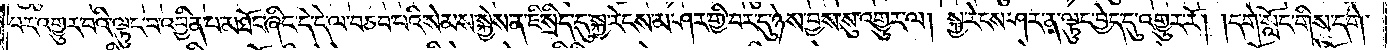པར་འགྱུར་བའི་ལྟུང་བ་འབྱིན་པ་མཐོང་ཞིང་དེ་དེ་ལ་བཅབ་པའི་སེམས་སྐྱེས་ན་ཇི་སྲིད་དུ་སྐྱ་རེངས་མ་ཤར་གྱི་བར་དུ་ཉེས་བྱས་སུ་འགྱུར་ལ། སྐྱ་རེངས་ཤར་ན་ལྟུང་བྱེད་དུ་འགྱུར་རོ། །དགེ་སློང་གིས་དགེ་
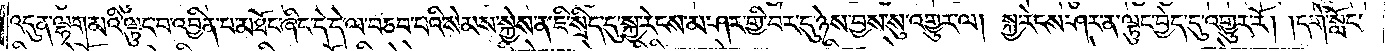འདུན་ལྷག་མའི་ལྟུང་བ་འབྱིན་པ་མཐོང་ཞིང་དེ་དེ་ལ་བཅབ་པའི་སེམས་སྐྱེས་ན་ཇི་སྲིད་དུ་སྐྱ་རེངས་མ་ཤར་གྱི་བར་དུ་ཉེས་བྱས་སུ་འགྱུར་ལ། སྐྱ་རེངས་ཤར་ན་ལྟུང་བྱེད་དུ་འགྱུར་རོ། །དགེ་སློང་
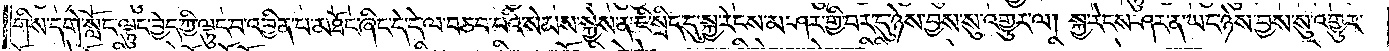གིས་དགེ་སློང་ལྟུང་བྱེད་ཀྱི་ལྟུང་བ་འབྱིན་པ་མཐོང་ཞིང་དེ་དེ་ལ་བཅབ་པའི་སེམས་སྐྱེས་ན་ཇི་སྲིད་དུ་སྐྱ་རེངས་མ་ཤར་གྱི་བར་དུ་ཉེས་བྱས་སུ་འགྱུར་ལ། སྐྱ་རེངས་ཤར་ན་ཡང་ཉེས་བྱས་སུ་འགྱུར་
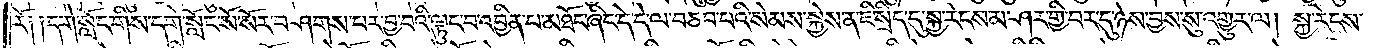རོ༑ ༑དགེ་སློང་གིས་དགེ་སློང་སོ་སོར་བཤགས་པར་བྱ་བའི་ལྟུང་བ་འབྱིན་པ་མཐོང་ཞིང་དེ་དེ་ལ་བཅབ་པའི་སེམས་སྐྱེས་ན་ཇི་སྲིད་དུ་སྐྱ་རེངས་མ་ཤར་གྱི་བར་དུ་ཉེས་བྱས་སུ་འགྱུར་ལ། སྐྱ་རེངས་
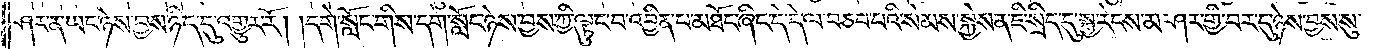ཤར་ན་ཡང་ཉེས་བྱས་ཉིད་དུ་འགྱུར་རོ། །དགེ་སློང་གིས་དགེ་སློང་ཉེས་བྱས་ཀྱི་ལྟུང་བ་འབྱིན་པ་མཐོང་ཞིང་དེ་དེ་ལ་བཅབ་པའི་སེམས་སྐྱེས་ན་ཇི་སྲིད་དུ་སྐྱ་རེངས་མ་ཤར་གྱི་བར་དུ་ཉེས་བྱས་སུ་
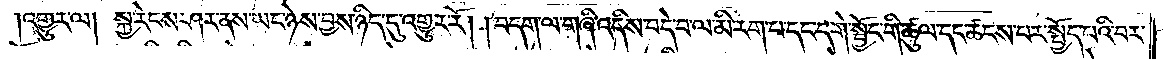འགྱུར་ལ། སྐྱ་རེངས་ཤར་ནས་ཡང་ཉེས་བྱས་ཉིད་དུ་འགྱུར་རོ། །བདག་ལ་གཞི་འདིས་བདེ་བ་ལ་མི་རེག་པ་དང་དགེ་སྦྱོང་གི་ཚུལ་དང་ཚངས་པར་སྤྱོད་པའི་བར་
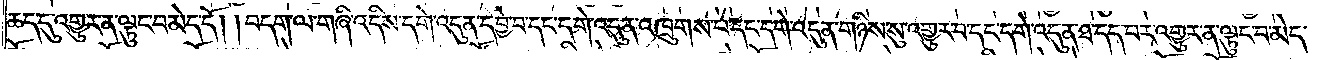ཆད་དུ་འགྱུར་ན་ལྟུང་བ་མེད་དོ། །བདག་ལ་གཞི་འདིས་དགེ་འདུན་དབྱེ་བ་དང་དགེ་འདུན་འཁྲུགས་པ་དང་དགེ་འདུན་གཉིས་སུ་འགྱུར་བ་དང་དགེ་འདུན་ཐ་དད་པར་འགྱུར་ན་ལྟུང་བ་མེད་
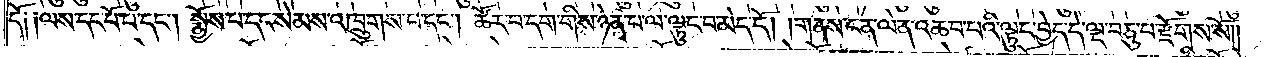དོ༑ ༑ལས་དང་པོ་པ་དང༌། སྨྱོས་པ་དང་སེམས་འཁྲུགས་པ་དང༌། ཚོར་བདག་གིས་ཉེན་པ་ལ་ལྟུང་བ་མེད་དོ། །གནས་ངན་ལེན་འཆབ་པའི་ལྟུང་བྱེད་དེ་ལྔ་བཅུ་པ་རྫོགས་སོ༎
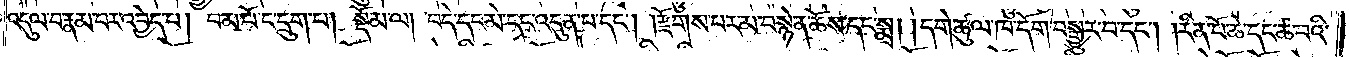འདུལ་བ་རྣམ་པར་འབྱེད་པ། བམ་པོ་ང་དྲུག་པ། སྡོམ་ལ། བདེ་དང་མེ་དང་འདུན་པ་དང༌། །རྫོགས་པར་མ་བསྙེན་ཆོས་དང་སྨྲ། །དགེ་ཚུལ་ཁ་དོག་བསྒྱུར་བ་དང༌། །རིན་པོ་ཆེ་དང་ཚ་བའི་
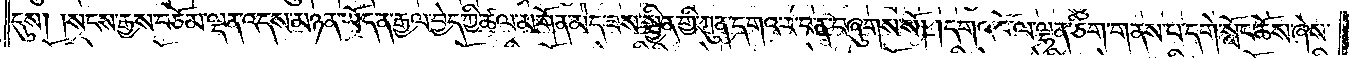དུས།    །སངས་རྒྱས་བཅོམ་ལྡན་འདས་མཉན་ཡོད་ན་རྒྱལ་བྱེད་ཀྱི་ཚལ་མགོན་མེད་ཟས་སྦྱིན་གྱི་ཀུན་དགའ་ར་བ་ན་བཞུགས་སོ། །དགའ་བོ་ལ་ལྷན་ཅིག་གནས་པ་དགེ་སློང་ཆོས་ཞེས་
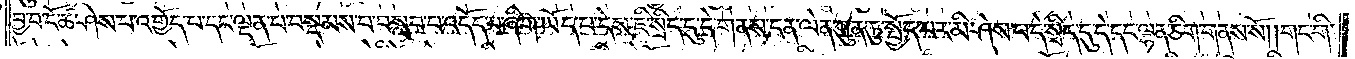བྱ་བ་ངོ་ཚ་ཤེས་པ་འགྱོད་པ་དང་ལྡན་པ་བསྡམས་པ་བསླབ་པ་འདོད་པ་ཞིག་ཡོད་པ་དེས་ཇི་སྲིད་དུ་དེ་གནས་ངན་ལེན་ཀུན་ཏུ་སྤྱོད་པར་མི་ཤེས་པ་དེ་སྲིད་དུ་དེ་དང་ལྷན་ཅིག་གནས་སོ༎གང་གི་
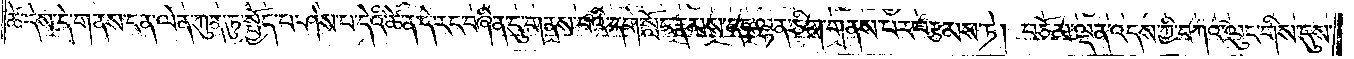ཚེ་དེས་དེ་གནས་ངན་ལེན་ཀུན་ཏུ་སྤྱོད་པ་ཤེས་པ་དེའི་ཚེ་ན་དེ་རང་བཞིན་དུ་གནས་པའི་དགེ་སློང་རྣམས་དང་ལྷན་ཅིག་གནས་པར་བརྩམས་ཏེ། བཅོམ་ལྡན་འདས་ཀྱི་བཀའ་ལུང་གིས་དུས་
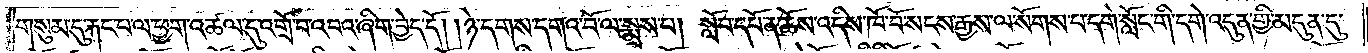གསུམ་དུ་རྐང་པ་ལ་ཕྱག་འཚལ་དུ་འགྲོ་བ་འབའ་ཞིག་བྱེད་དོ། །ཉེ་དགས་དགའ་བོ་ལ་སྨྲས་པ། སློབ་དཔོན་ཆོས་འདིས་ཁོ་བོ་སངས་རྒྱས་ལ་སོགས་པ་དགེ་སློང་གི་དགེ་འདུན་གྱི་མདུན་དུ་
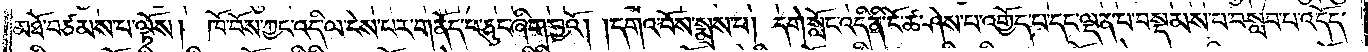མཐོ་བཙམས་པ་ལྟོས། ཁོ་བོས་ཀྱང་འདི་ལ་ངེས་པར་གནོད་པ་ཅུང་ཞིག་བྱའོ། །དགའ་བོས་སྨྲས་པ། དགེ་སློང་འདི་ནི་ངོ་ཚ་ཤེས་པ་འགྱོད་པ་དང་ལྡན་པ་བསྡམས་པ་བསླབ་པ་འདོད་
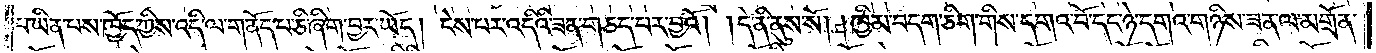པ་ཡིན་པས་ཁྱོད་ཀྱིས་འདི་ལ་གནོད་པ་ཅི་ཞིག་བྱར་ཡོད། ངེས་པར་འདིའི་ཟན་གཅད་པར་བྱའོ། །དེ་ནི་ནུས་སོ། །ཁྱིམ་བདག་ཅིག་གིས་དགའ་བོ་དང་ཉེ་དགའ་གཉིས་ཟན་ལ་མགྲོན་
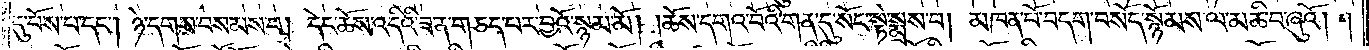དུ་བོས་པ་དང༌། ཉེ་དགས་བསམས་པ། དེང་ཆོས་འདིའི་ཟན་གཅད་པར་བྱའོ་སྙམ་མོ། །ཆོས་དགའ་བོའི་གན་དུ་སོང་སྟེ་སྨྲས་པ། མཁན་པོ་བདག་བསོད་སྙོམས་ལ་མཆི་བ་ཞུའོ། །
